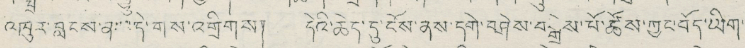འཁུར་བླངས་ན་་དི་གས་འགྲིགས། དེའི་ཆེད་དུ་ངོས་ནས་དགེ་བཤེས་བསྒྲེས་པོ་ཆོས་ཀྱང་བོད་ཡིག་
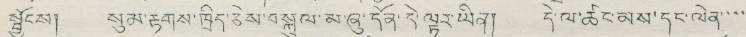སྦྱོངས། སུམ་རྟགས་ཁྲིད་ཅེས་བསྐུལ་མ་ཞུ་དོན་དེ་ལྟར་ཡིན། དེ་ལ་ཚང་མས་དང་ལེན་་་་
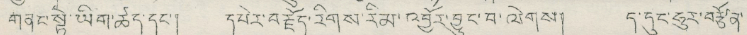གཞུང་སྟེ་ཡིག་ཚད་དང་། དཔེར་བརྗོད་རིགས་རིམ་འབྱོར་བྱུང་བ་ལེགས། ད་དུང་ཧུར་བརྩོན་
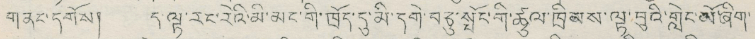གནང་དགོས། ད ལྟ་རང་རེའི་མི་མང་གི་ཁྲོད་དུ་མི་དགེ་བཅུ་སྤོང་གི་ཚུལ་ཁྲིམས་ལྟ་བུའི་གླེང་མོ་ཞིག་
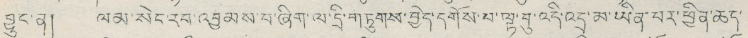བྱུང་ན། ལམ་སེང་རབ་འབྱམས་པ་ཞིག་ལ་དྲི་གཏུགས་བྱེད་དགོས་པ་ལྟ་བུ་འདི་འང་མ་ཡིན་པར་ཕྱིན་ཆད་
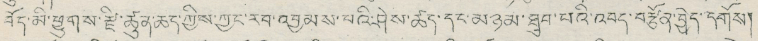བོད་མི་ཕྱུགས་རྫི་ཚུན་ཆད་ཀྱིས་ཀྱང་རབ་འབྱམས་པའི་ཤེས་ཚད་དང་མཉམ་ཐུབ་པའི་འབད་བརྩོན་བྱེད་དགོས།
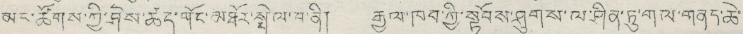མང་ཚོགས་ཀྱི་ཤེས་ཚད་གོང་མཐོར་སྤེལ་བ་ནི། རྒྱལ་ཁབ་ཀྱི་སྟོབས་ཤུགས་ལ་ཤིན་ཏུ་གལ་གནད་ཆེ་
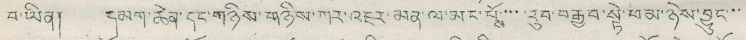བ་ཡིན། དམག་ཆེན་དང་གཉིས་གཉིས་ཀར་འཇར་མན་ལ་མང་པོས་་་་་རུབ་བརྒྱབ་སྟེ་ཕམ་ཉེས་བྱུང་་་
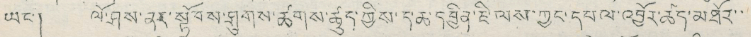ཡང་། ལོ་ཤས་ནར་སྟོབས་ཤུགས་ཚགས་ཚུད་ཀྱིས་ད་ཆ་དབྱིན་ཇི་ལས་ཀྱང་དཔལ་འབྱོར་ཚད་མཐོར་་་
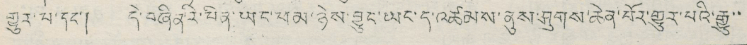གྱུར་པ་དང་། དེ་བཞིན་རི་པིན་ཡང་ཕམ་ཉེས་བྱུང་ཡང་ད་འཚམས་ནུས་ཤུགས་ཆེན་པོར་གྱུར་པའི་རྒྱ་་
